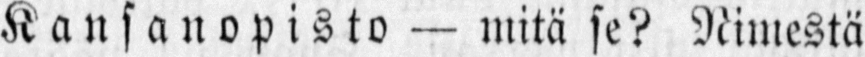Kansanopisto — mitä se? Nimestä
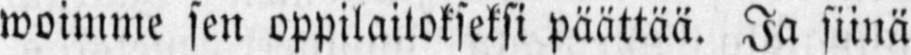woimme sen oppilaitokseksi päättää. Ja siinä
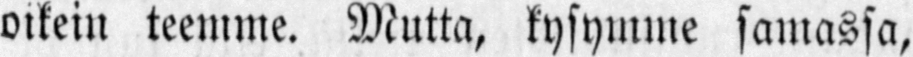oikein teemme. Mutta, kysymme samassa,
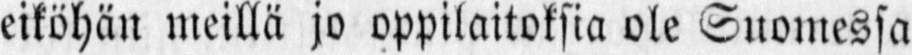eiköhän meillä jo oppilaitoksia ole Suomessa
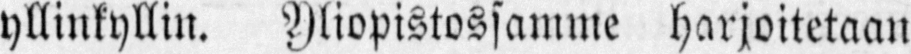yllinkyllin. Yliopistossamme harjoitetaan
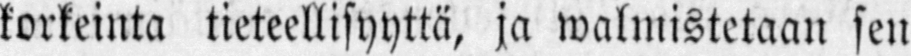korkeinta tieteellisyyttä, ja walmistetaan sen
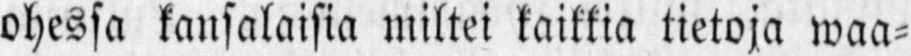ohessa kansalaisia miltei kaikkia tietoja waa-
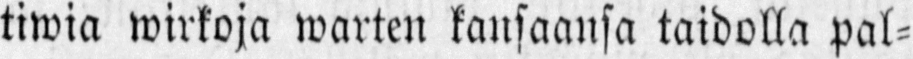tiwia wirkoja warten kansaansa taidolla pal-
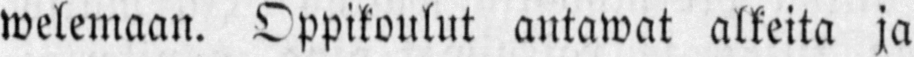welemaan. Oppikoulut antawat alkeita ja
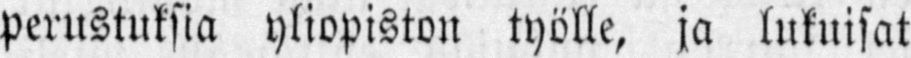perustuksia yliopiston työlle, ja lukuisat
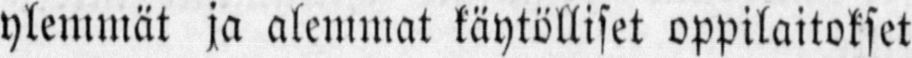ylemmät ja alemmat käytölliset oppilaitokset
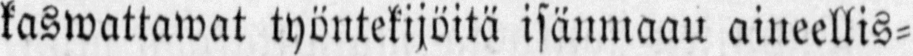kaswattawat työntekijöitä isänmaau aineellis-
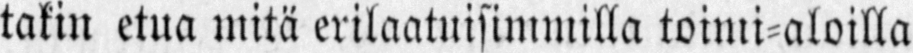takin etua mitä erilaatuisimmilla toimi-aloilla
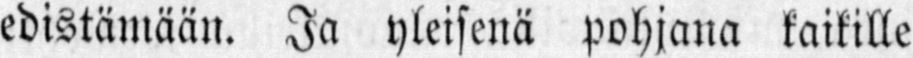edistämään. Ja yleisenä pohjana kaikille
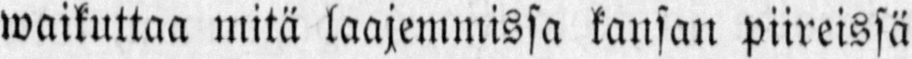waikuttaa mitä laajemmissa kansan piireissä
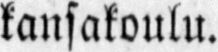kansakoulu.
